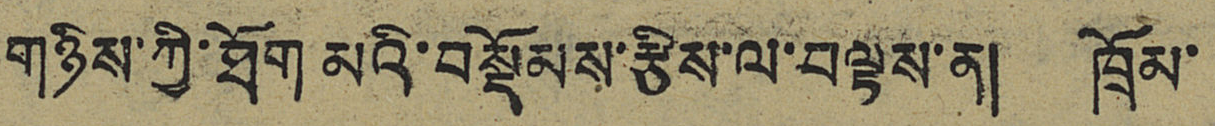གཉིས་ཀྱི་ཐོག་མའི་བསྡོམས་རྩིས་ལ་བལྟས་ན། ཁྲོམ་
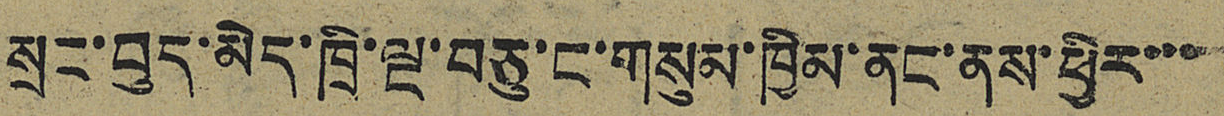སྲུང་བུད་མེད་ཁྲི་ལྔ་བཅུ་ང་གསུམ་ཁྱིམ་ནང་ནས་ཕྱིར་་་
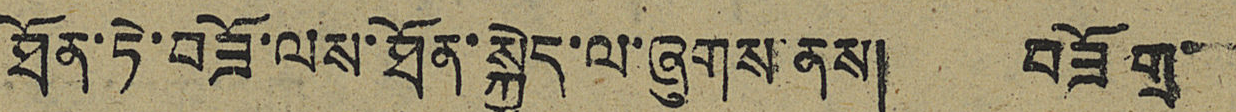ཐོན་ཏེ་བཟོ་ལས་ཐོན་སྐྱེད་ལ་ཞུགས་ནས། བཟོ་གྲ་
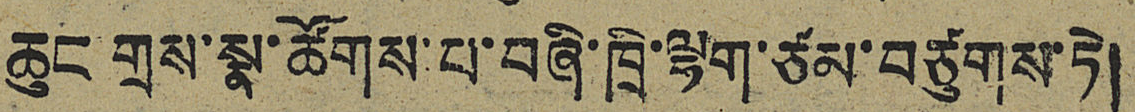ཆུང གྲས་སྣ་ཚོགས་པ་བཞི་ཁྲི་ལྷག་ཙམ་བཙུགས་ཏེ།
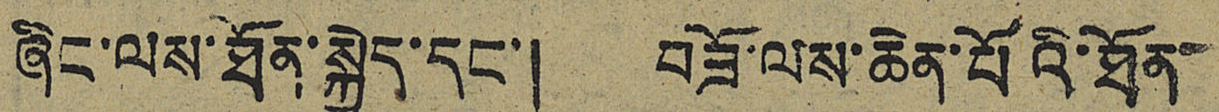ཞིང་ལས་ཐོན་སྐྱེད་དང་། བཟོ་ལས་ཆེན་པོའི་ཐོན་
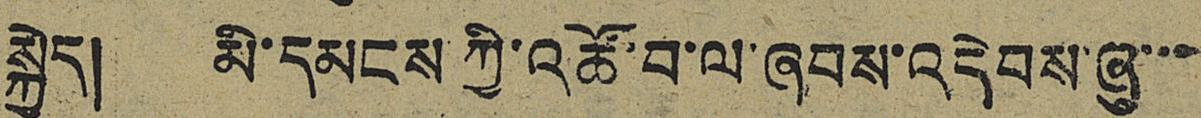སྐྱེད། མི་དམངས་ཀྱི་འཚོ་བ་ལ་ཞབས་འདེབས་ཞུ་་་
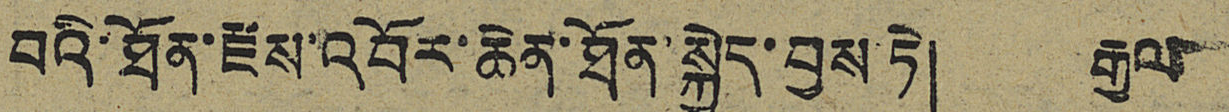བའི་ཐོན་རྫས་འབོར་ཆེན་ཐོན་སྐྱེད་བྱས་ཏེ། རྒྱལ
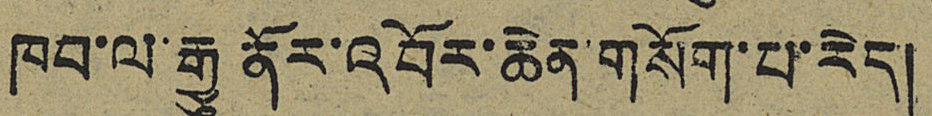ཁབ་ལ་རྒྱུ ནོར་འབོར་ཆེན་གསོག་པ་རེད།
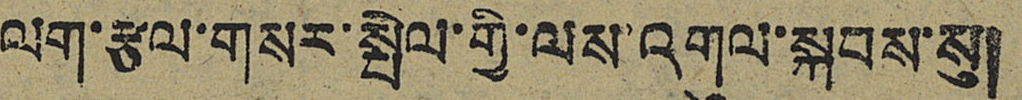ལག་རྩལ་གསར་སྤེལ་གྱི་ལས་འགུལ་སྐབས་སུ།
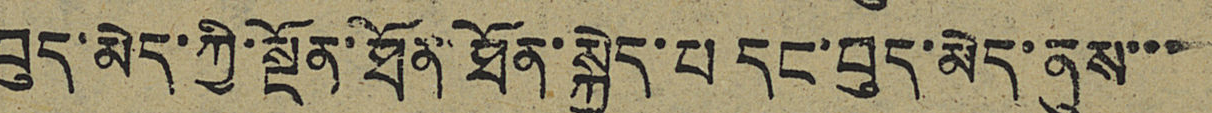བུད་མེད་ཀྱི་སྔོན་ཐོན་སྐྱེད་པ དང་བུད་མེད་ནུས་་་
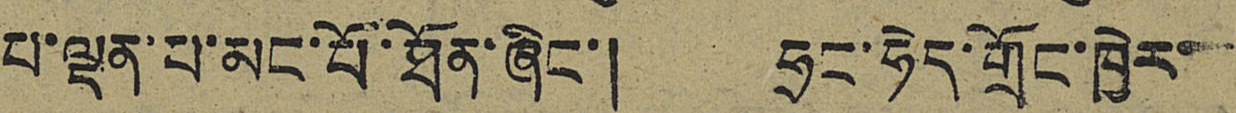པ་ལྡན་པ་མང་པོ་ཐོན་ཞིང་། ཧྲང་ཧེད་གྲོང་ཁྱེར་
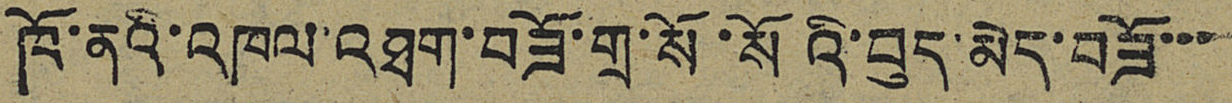ཁོ་ནའི་འཁལ་འཐག་བཟོ་གྲ་སོ་སོའི་བུད་མེད་བཟོ་་་
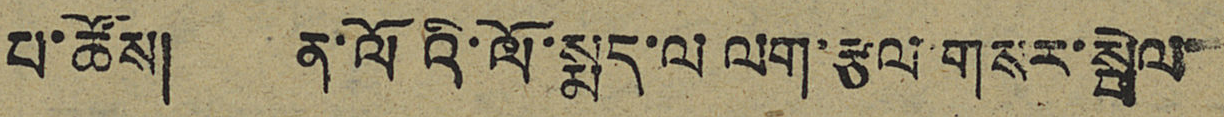པ་ཚོས། ན་ལོའི་ལོ་སྨད་ལ ལག་རྩལ་གསར་སྤེལ་
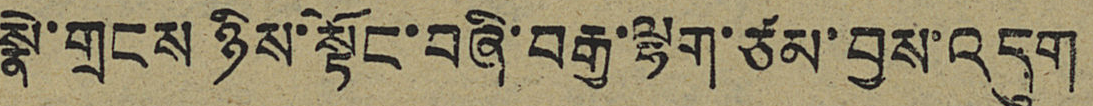སྣེ་གྲངས ཉིས་སྟོང་བཞི་བརྒྱ་ལྷག་ཙམ་བྱས་འདུག
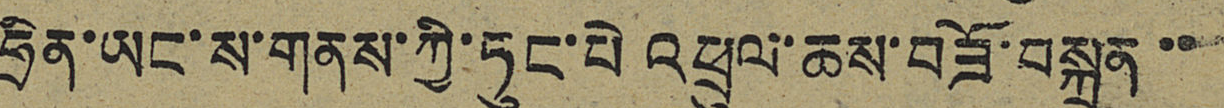ཧྲིན་ཡང་ས་གནས་ཀྱི་ཏུང་པེ འཕྲུལ་ཆས་བཟོ་བསྐྲུན་་
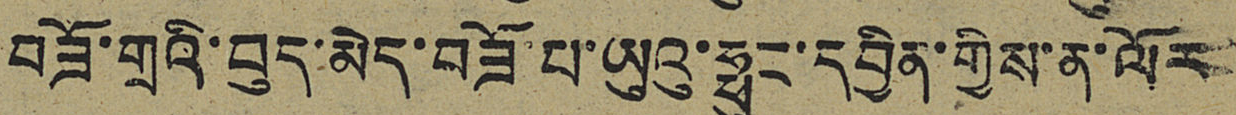བཟོ་གྲའི་བུད་མེད་བཟོ་པ་ཡུའུ་ཧྥུང་དབྱིན་གྱིས་ན་ལོར
